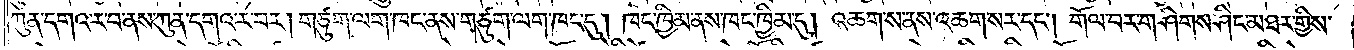ཀུན་དགའ་ར་པ་ནས་ཀུན་དགའ་ར་བར། གཙུག་ལག་ཁང་ནས་གཙུག་ལག་ཁང་དུ། ཁང་ཁྱིམ་ནས་ཁང་ཁྱིམ་དུ། འཆག་ས་ནས་འཆག་སར་དང༌། གོལ་བར་གཤེགས་ཤིང་མཐར་གྱིས་
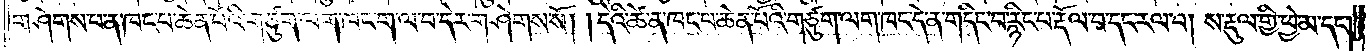གཤེགས་པ་ན་ཁང་པ་ཆེན་པོའི་གཙུག་ལག་ཁང་ག་ལ་བ་དེར་གཤེགས་སོ། །དེའི་ཚེ་ན་ཁང་པ་ཆེན་པོའི་གཙུག་ལག་ཁང་དེ་ན་གདིང་བ་རྙིང་བ་རྡོལ་བ་དང་རལ་བ། ས་རྡུལ་གྱི་ཕྱེ་མ་དང༌།
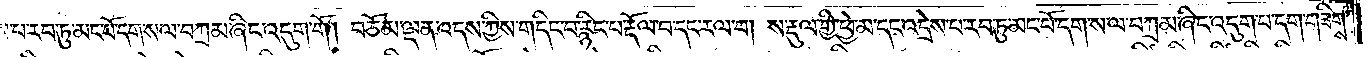འདྲེས་པ་རབ་ཏུ་མང་པོ་དག་ས་ལ་བཀྲམ་ཞིང་འདུག་གོ། བཅོམ་ལྡན་འདས་ཀྱིས་གདིང་བ་རྙིང་བ་རྡོལ་བ་དང་རལ་བ། ས་རྡུལ་གྱི་ཕྱེ་མ་དང་འདྲེས་པ་རབ་ཏུ་མང་པོ་དག་ས་ལ་བཀྲམ་ཞིང་འདུག་པ་དག་གཟིགས་
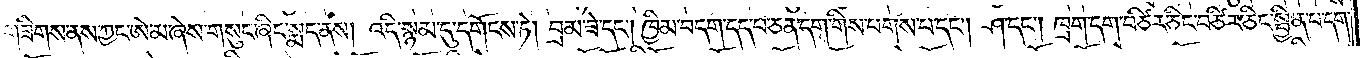གཟིགས་ནས་ཀྱང་ཨེ་མ་ཞེས་གསུང་ཞིང་སྨད་ནས། འདི་སྙམ་དུ་དགོངས་ཏེ། བྲམ་ཟེ་དང༌། ཁྱིམ་བདག་དད་པ་ཅན་དག་གིས་པགས་པ་དང༌། ཤ་དང༌། ཁྲག་དག་བཙིར་ཅིང་བཙིར་ཅིང་སྦྱིན་པ་དག་
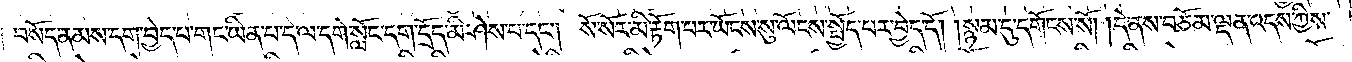བསོད་ནམས་དག་བྱེད་པ་གང་ཡིན་པ་དེ་ལ་དགེ་སློང་དག་དྲོད་མི་ཤེས་པ་དང༌། སོ་སོར་མི་རྟོག་པར་ཡོངས་སུ་ལོངས་སྤྱོད་པར་བྱེད་དོ། །སྙམ་དུ་དགོངས་སོ། །དེ་ནས་བཅོམ་ལྡན་འདས་ཀྱིས་
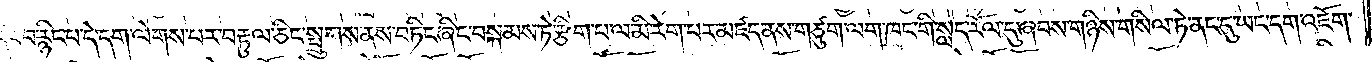གདིང་བ་རྙིང་བ་དེ་དག་ལེགས་པར་བརྟུལ་ཅིང་སྤྲུགས་ནས་བཏིང་ཞིང་བསྐམས་ཏེ་རྩིག་པ་ལ་མི་རེག་པར་མཛད་ནས་གཙུག་ལག་ཁང་གི་སླད་རོལ་དུ་ཞབས་གཉིས་གསིལ་ཏེ་ནང་དུ་ཡང་དག་འཇོག་
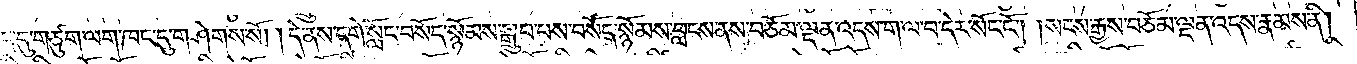གི་སླད་དུ་གཙུག་ལག་ཁང་དུ་གཤེགས་སོ། །དེ་ནས་དགེ་སློང་བསོད་སྙོམས་སྒྲུབ་པས་བསོད་སྙོམས་བླངས་ནས་བཅོམ་ལྡན་འདས་ག་ལ་བ་དེར་སོང་ངོ༌། །སངས་རྒྱས་བཅོམ་ལྡན་འདས་རྣམས་ནི།
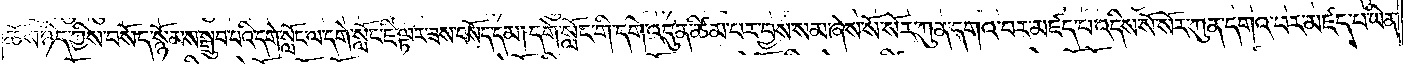ཆོས་ཉིད་ཀྱིས་བསོད་སྙོམས་སྒྲུབ་པའི་དགེ་སློང་ལ་དགེ་སློང་ཇི་ལྟར་ཟས་བསོད་དམ། དགེ་སློང་གི་དགེ་འདུན་ཚིམ་པར་བྱས་སམ་ཞེས་སོ་སོར་ཀུན་དགའ་བར་མཛད་པ་འདིས་སོ་སོར་ཀུན་དགའ་བར་མཛད་པ་ཡིན་
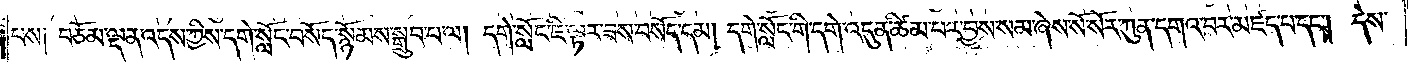པས། བཅོམ་ལྡན་འདས་ཀྱིས་དགེ་སློང་བསོད་སྙོམས་སྒྲུབ་པ་ལ། དགེ་སློང་ཇི་ལྟར་ཟས་བསོད་དམ། དགེ་སློང་གི་དགེ་འདུན་ཚིམ་པར་བྱས་སམ་ཞེས་སོ་སོར་ཀུན་དགའ་བར་མཛད་པ་དང༌། དེས་
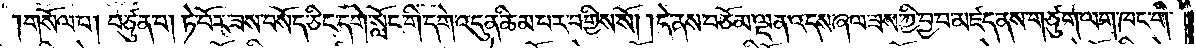གསོལ་པ། བཙུན་པ། ཏེ་བོར་ཟས་བསོད་ཅིང་དགེ་སློང་གི་དགེ་འདུན་ཆིམ་པར་བགྱིས་སོ། །དེ་ནས་བཅོམ་ལྡན་འདས་ཞལ་ཟས་ཀྱི་བྱ་བ་མཛད་ནས་གཙུག་ལག་ཁང་གི་
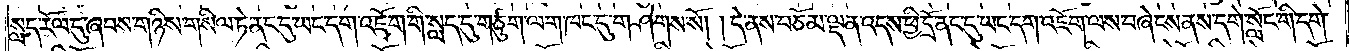སླད་རོལ་དུ་ཞབས་གཉིས་གསིལ་ཏེ་ནང་དུ་ཡང་དག་འཇོག་གི་སླད་དུ་གཙུག་ལག་ཁང་དུ་གཤེགས་སོ། །དེ་ནས་བཅོམ་ལྡན་འདས་ཕྱི་དྲོ་ནང་དུ་ཡང་དག་འཇོག་ལས་བཞེངས་ནས་དགེ་སློང་གི་དགེ་
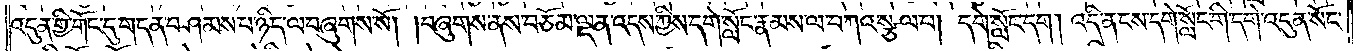འདུན་གྱི་གོང་དུ་གདན་བཤམས་པ་ཉིད་ལ་བཞུགས་སོ། །བཞུགས་ནས་བཅོམ་ལྡན་འདས་ཀྱིས་དགེ་སློང་རྣམས་ལ་བཀའ་སྩལ་པ། དགེ་སློང་དག། འདི་ན་ངས་དགེ་སློང་གི་དགེ་འདུན་སོང་
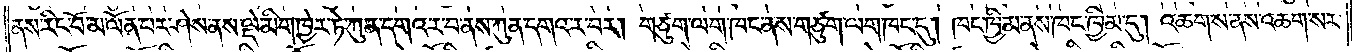ནས་རིང་བ་མ་ལོན་པར་ཤེས་ནས་ལྡེ་མིག་ཁྱེར་ཏེ་ཀུན་དགའ་ར་བ་ནས་ཀུན་དགའ་ར་བར། གཙུག་ལག་ཁང་ནས་གཙུག་ལག་ཁང་དུ། ཁང་ཁྱིམ་ནས་ཁང་ཁྱིམ་དུ། འཆགས་ནས་འཆག་སར་
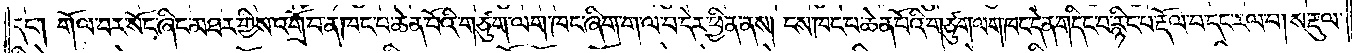དང༌། གོལ་བར་སོང་ཞིང་མཐར་གྱིས་འགྲོ་བ་ན་ཁང་པ་ཆེན་པོའི་གཙུག་ལག་ཁང་ཞིག་ག་ལ་བ་དེར་ཕྱིན་ནས། ངས་ཁང་པ་ཆེན་པོའི་གཙུག་ལག་ཁང་དེ་ན་གདིང་བ་རྙིང་པ་རྡོལ་བ་དང་རལ་བ།ས་རྡུལ་
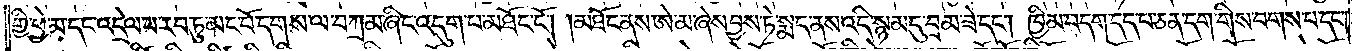གྱི་ཕྱེ་མ་དང་འདྲེལ་པ་རབ་ཏུ་མང་པོ་དག་ས་ལ་བཀྲམ་ཞིང་འདུག་པ་མཐོང་ངོ༌། །མཐོང་ནས་ཨེ་མ་ཞེས་བྱས་ཏེ་སྨད་ནས་འདི་སྙམ་དུ་བྲམ་ཟེ་དང༌། ཁྱིམ་བདག་དད་པ་ཅན་དག་གིས་བགས་པ་དང་
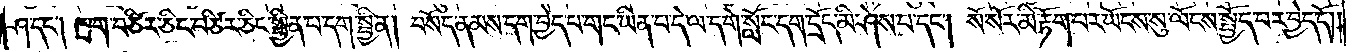ཤ་དང༌། ཁྲག་བཙིར་ཅིང་བཙིར་ཅིང་སྦྱིན་བདག་སྦྱིན། བསོད་ནམས་དག་བྱེད་པ་གང་ཡིན་པ་དེ་ལ་དགེ་སློང་དག་དྲོད་མི་ཤེས་པ་དང༌། སོ་སོར་མི་རྟོག་པར་ཡོངས་སུ་ལོངས་སྤྱོད་པར་བྱེད་དོ༎
